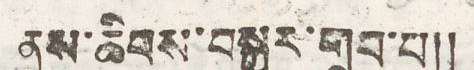ནས་ཆིབས་བསྐྱུར་གྲུབ་པ།།
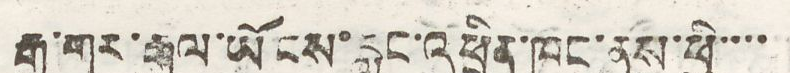རྒྱ་གར་རྒྱལ་ཡོངས་རླུང་འཕྲིན་ཁང་ནས་ཕྱི་་་་་
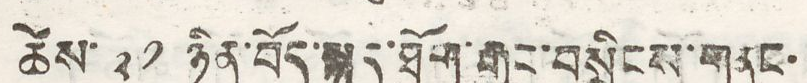ཚེས་ ༢༡ ཉིན་བོད་སྐད་ཐོག་རྒྱང་བསྲིངས་གནང་
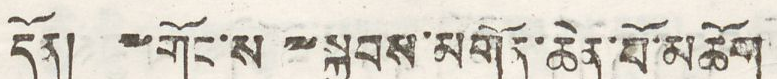དོན། ༸གོང་ས་༸སྐྱབས་མགོན་ཆེན་པོ་མཆོག
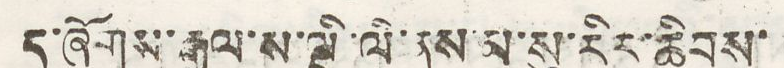ད་ཞོགས་རྒྱལ་ས་ལྡི་ལི་ནས་མ་སུ་རིར་ཆིབས་
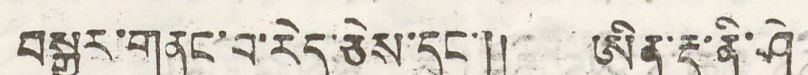བསྒྱུར་གནང་པ་རེད་ཅེས་དྲང་།། ཨིན་རྡུ་ནི་ཤེ
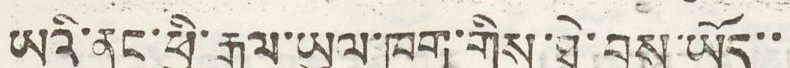ཡའི་ནང་ཕྱི་རྒྱལ་ཡུལ་ཁག་གིས་ཐེ་བྱུས་ཡོད་་
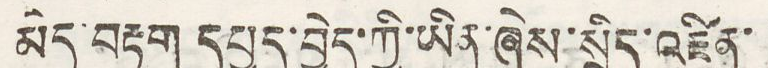མེད་བརྟག དཔྱད་བྱེད་ཀྱི་ཡིན་ཆེས་སྲིད་འཛིན་
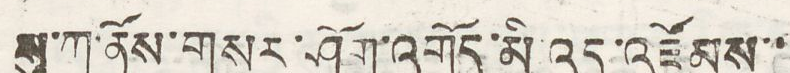སུ་ཀ་ནོས་གསར་ཤོག་འགོད་མི་འདུ་འཛོམས་་
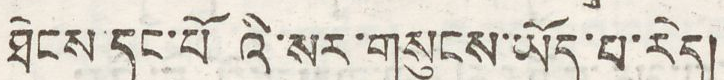ཐེངས་དང་པའི་སར་གསུངས་ཡོད་པ་རེད།
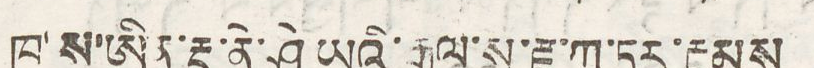ཁ་ས་ཨིན་རྡུ་ནེ་ཤེ ཡའི་རྒྱལ་ས་རྫ་ཀ་ཏར་རྔམས
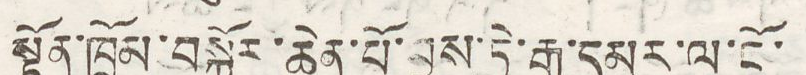སྟོན་ཁྲོམ་བསྐོར་ཆེན་པོ་བྱས་ཏེ་རྒྱ་དམར་ལ་ངོ་
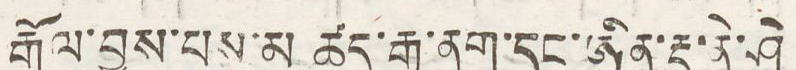རྒོལ་བྱས་པས་མ ཚད་རྒྱ་ནག་དང་ཨིན་རྡུ་ནེ་ཤེ
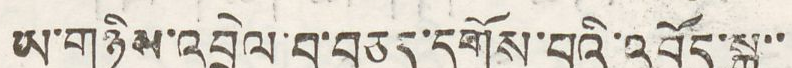ཡ་གཉིས་འབྲེལ་བ་བཅད་དགོས་པའི་འབོད་སྒྲ་་
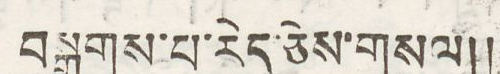བསྒྲགས་པ་རེད་ཅེས་གསལ།།
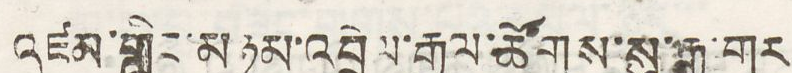འཛམ་གླིང་མཉམ་འབྲེལ་རྒྱལ་ཚོགས་སུ་རྒྱ་གར
